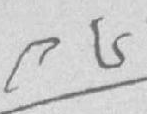༩༦
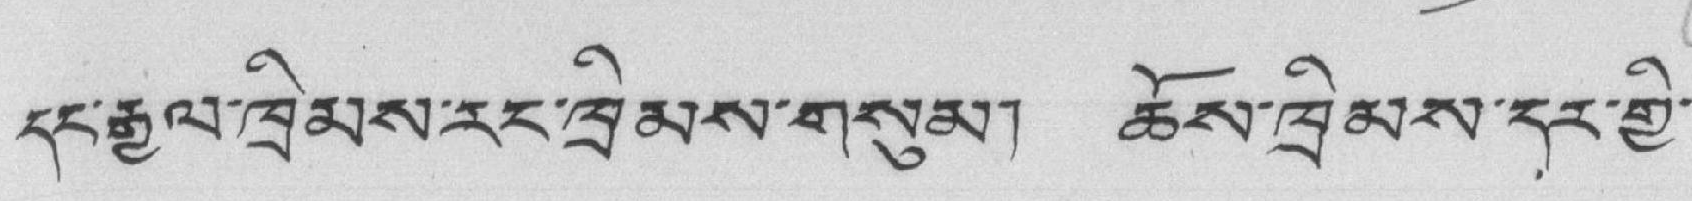དང་རྒྱལ་ཁྲིམས་རང་ཁྲིམས་གསུམ། ཆོས་ཁྲིམས་དར་གྱི་
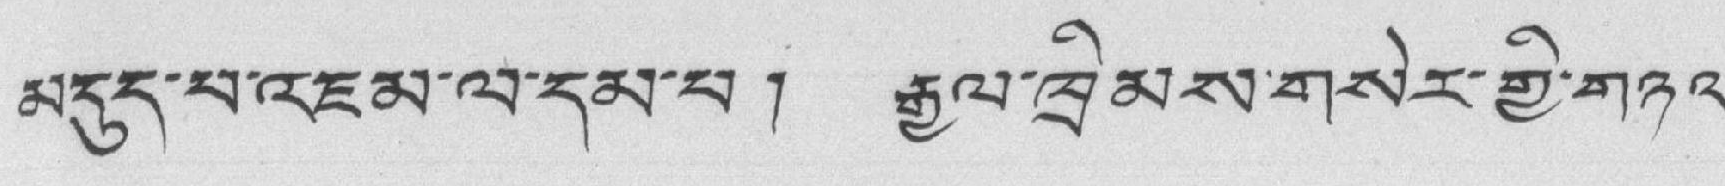མདུད་པ་འཇམ་ལ་དམ་པ ། རྒྱལ་ཁྲིམས་གསེར་གྱི་གཉའ་
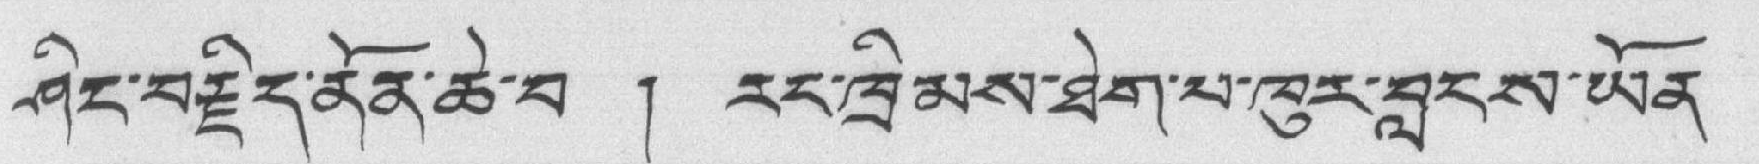ཤིང་བརྗིད་ནོན་ཆེ་བ ། རང་ཁྲིམས་ཐེག་པ་ཁུར་བླངས་ཡོན་
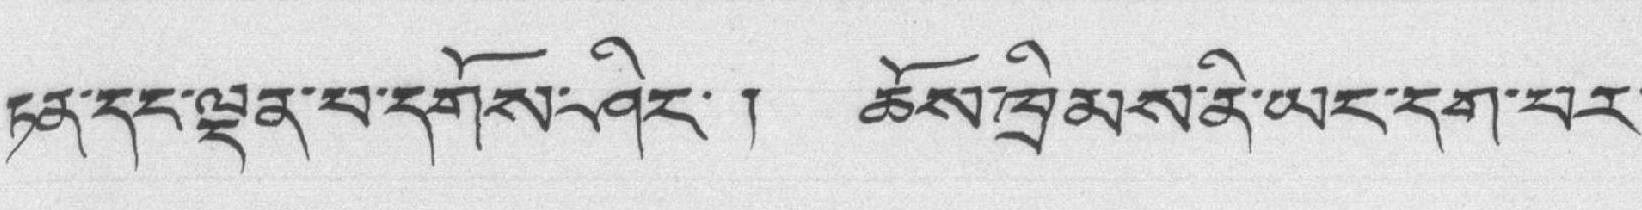ཏན་དང་ལྡན་པ་དགོས་ཤིང་། ཆོས་ཁྲིམས་ནི་ཡང་དག་པར་
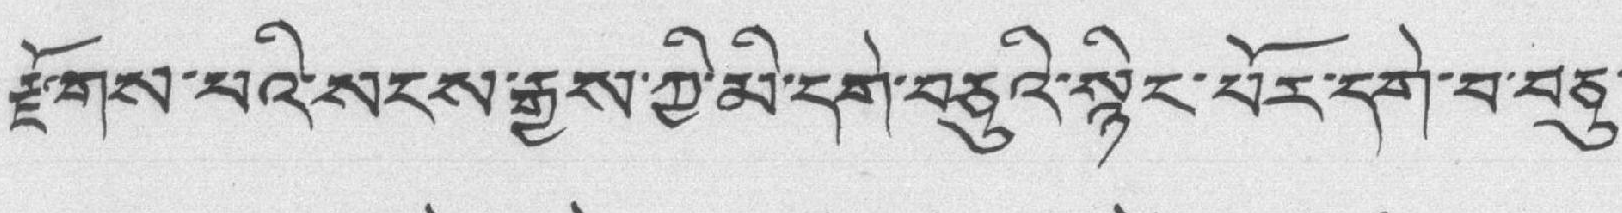རྫོགས་པའི་སངས་རྒྱས་ཀྱི་མི་དགེ་བཅུའི་སྙིང་པོར་དགེ་བ་བཅུ་
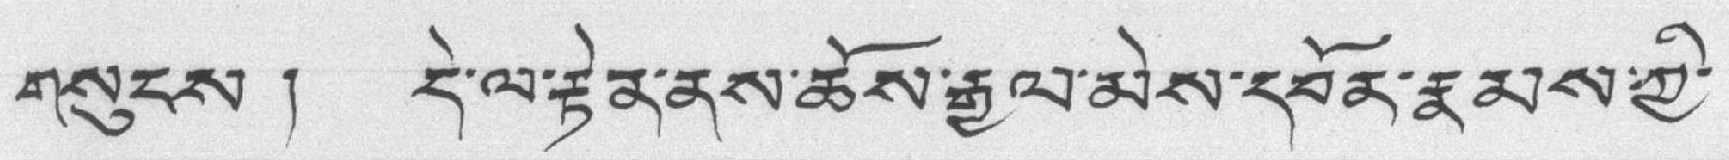གསུངས ། དེ་ལ་རྟེན་ནས་ཆོས་རྒྱལ་མེས་དབོན་རྣམས་ཀྱི་
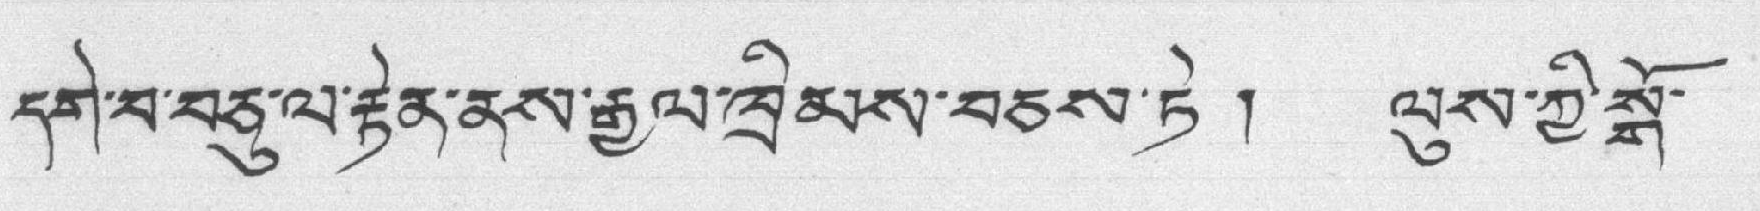དགེ་བ་བཅུ་ལ་རྟེན་ནས་རྒྱལ་ཁྲིམས་བཅས་ཏེ ། ལུས་ཀྱི་སྒོ་
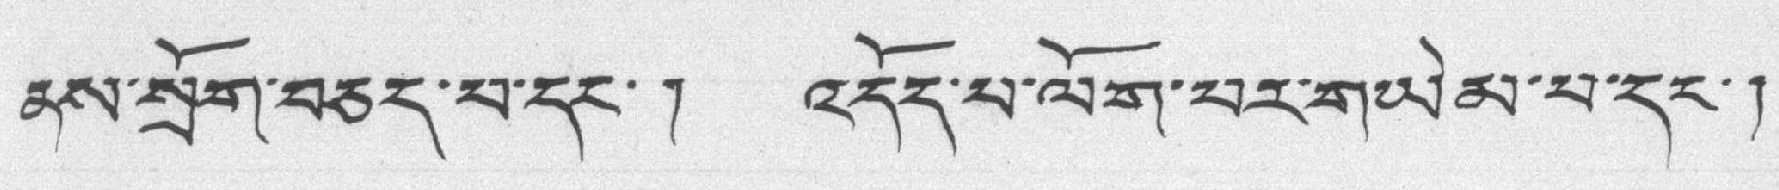ནས་སྲོག་བཅད་པ་དང་། འདོད་པ་ལོག་པར་གཡེམ་པ་དང་།
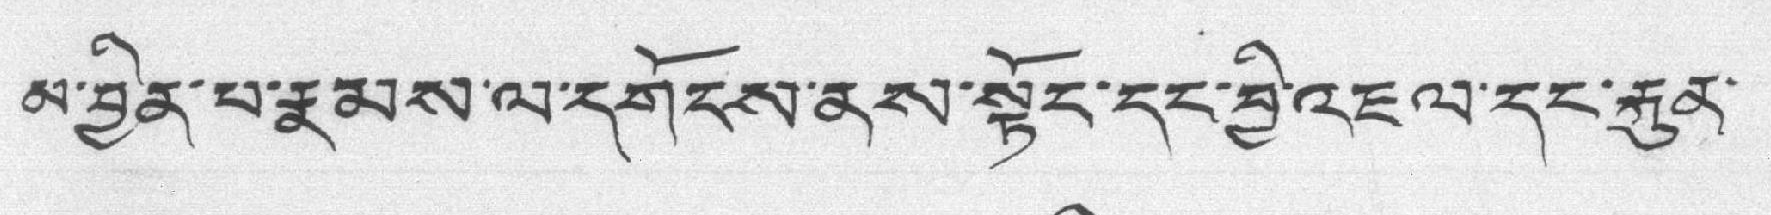མ་བྱིན་པ་རྣམས་ལ་དགོངས་ནས་སྟོང་དང་བྱི་འཇལ་དང་རྐུན་
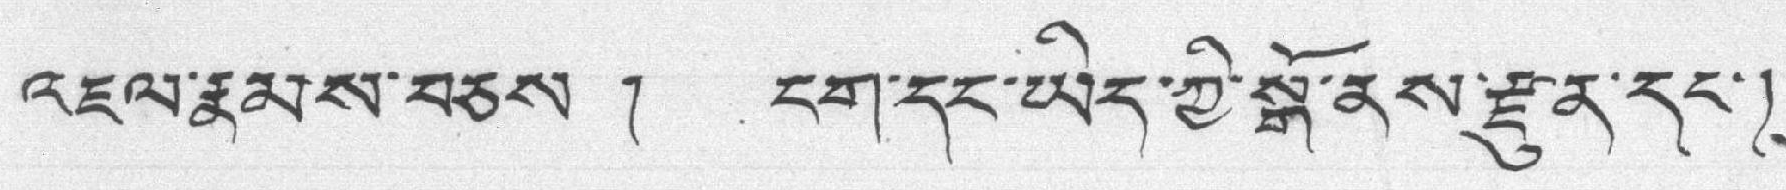འཇལ་རྣམས་བཅས ། ངག་དང་ཡིད་ཀྱི་སྒོ་ནས་རྫུན་དང་།
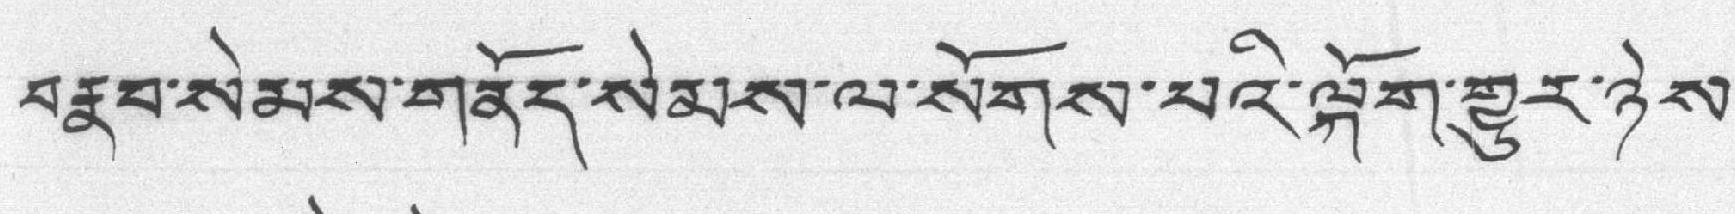པ་རྣམས་སེམས་གནོད་སེམས་ལ་སོགས་པའི་ལྐོག་གྱུར་ཉེས་
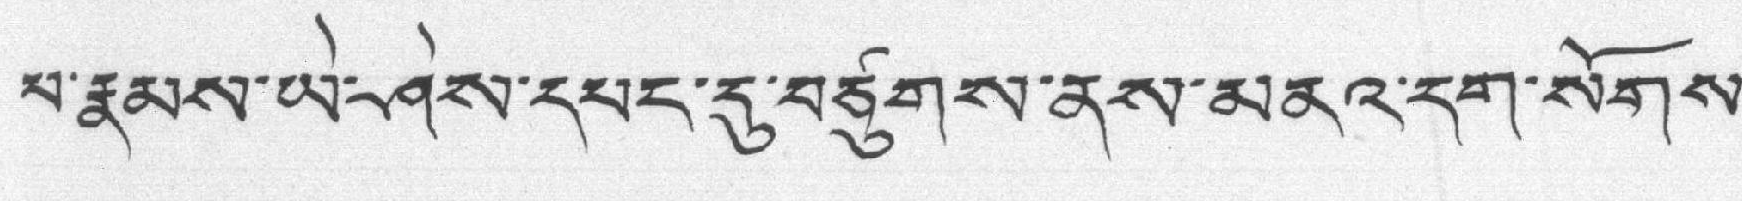མ་རྣམས་ཡང་ཤེས་དཔང་དུ་བཙུགས་ནས་མནའ་དག་སོགས་
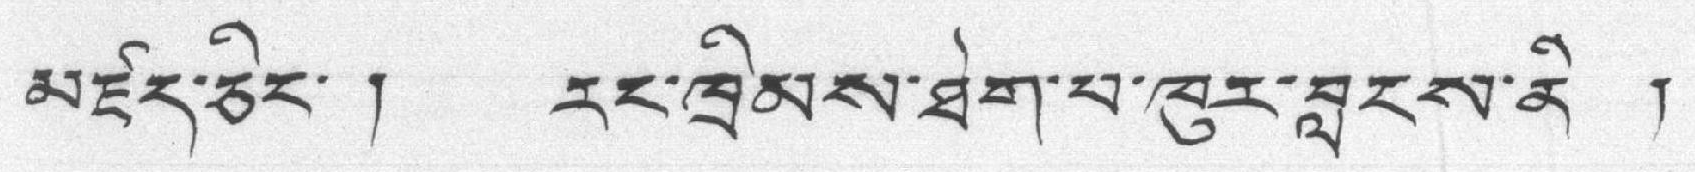མཛད་ཅིང་ ། རང་ཁྲིམས་ཐེག་བ་ཁུར་བླངས་ནི །
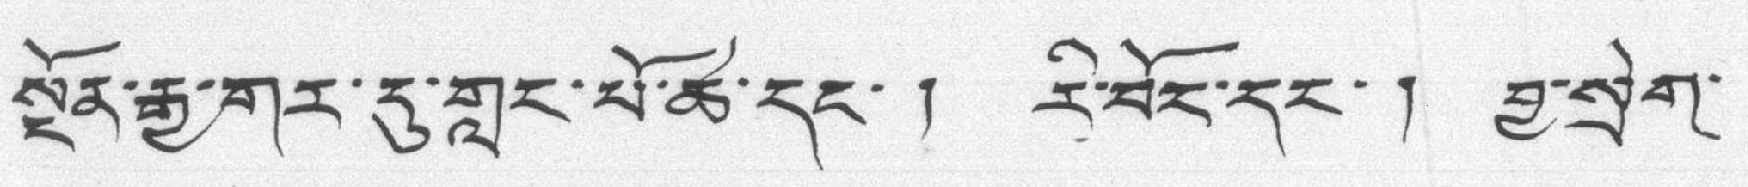སྔོན་རྒྱ་གར་རུ་གླང་པོ་ཆེ་དང་། རི་བོང་དང་། བྱ་སྲེག་
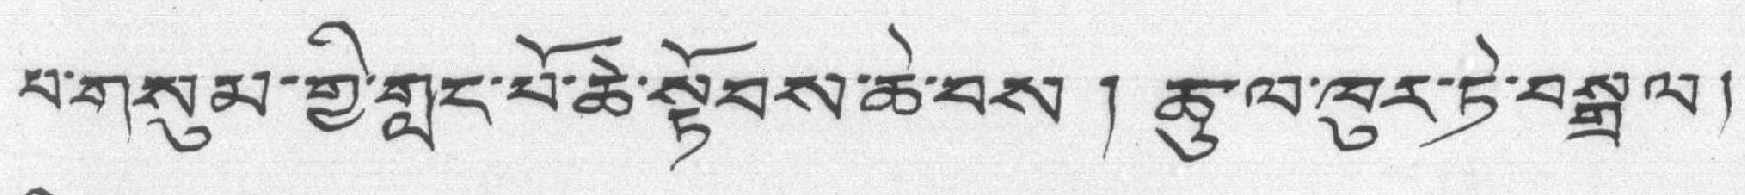པ་གསུམ་གྱི་གླང་པོ་ཆེ་སྟོབས་ཆེ་བས ། ཆུ་ལ་ཁུར་ཏེ་བསྒྲལ།
